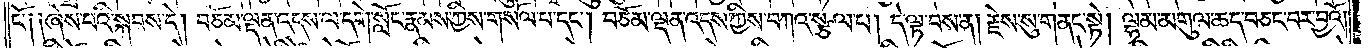ངོ༑  ༑ ཞེས་པའི་སྐབས་དེ། བཅོམ་ལྡན་འདས་ལ་དགེ་སློང་རྣམས་ཀྱིས་གསོལ་པ་དང༌། བཅོམ་ལྡན་འདས་ཀྱིས་བཀའ་སྩལ་པ། དེ་ལྟ་བས་ན། རྗེས་སུ་གནང་སྟེ། ལྷམ་མགུལ་ཆད་བཅང་བར་བྱའོ། །
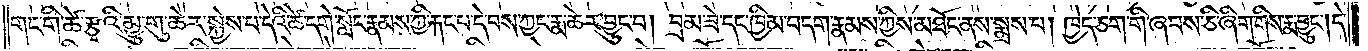གང་གི་ཚེ་རྩྭའི་མྱུ་གུ་ཆེར་སྐྱེས་པ་དེའི་ཚེ་དགེ་སློང་རྣམས་ཀྱི་རྐང་པ་དེ་བས་ཀྱང་རྨ་ཆེར་བྱུང་བ། བྲམ་ཟེ་དང་ཁྱིམ་བདག་རྣམས་ཀྱིས་མཐོང་ནས་སྨྲས་པ། ཁྱེད་ཅག་གི་ཞབས་ཅི་ཞིག་གིས་རྨ་བྱུང༌། དེ་
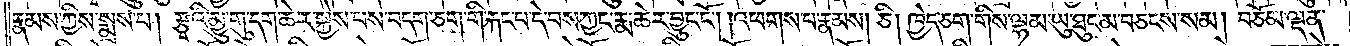རྣམས་ཀྱིས་སྨྲས་པ། རྩྭའི་མྱུ་གུ་དག་ཆེར་སྐྱེས་པས་བདག་ཅག་གི་རྐང་པ་དེ་བས་ཀྱང་རྨ་ཆེར་བྱུང་ངོ༌། །འཕགས་པ་རྣམས། ཅི། ཁྱེད་ཅག་གིས་ལྷམ་ཡུ་ཐུང་མ་བཅངས་སམ། བཅོམ་ལྡན་
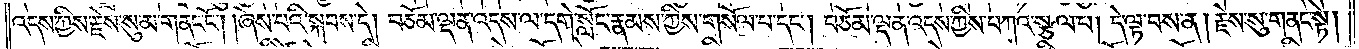འདས་ཀྱིས་རྗེས་སུ་མ་གནང་ངོ༌། །ཞེས་པའི་སྐབས་དེ། བཅོམ་ལྡན་འདས་ལ་དགེ་སློང་རྣམས་ཀྱིས་གསོལ་པ་དང༌། བཅོམ་ལྡན་འདས་ཀྱིས་བཀའ་སྩལ་པ། དེ་ལྟ་བས་ན། རྗེས་སུ་གནང་སྟེ།
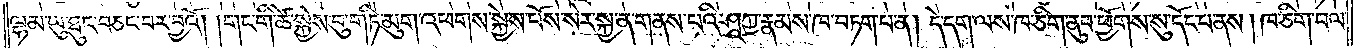ལྷམ་ཡུ་ཐུང་བཅང་བར་བྱའོ། །གང་གི་ཚེ་སྐྱེས་བུ་གཏི་མུག་འཕགས་སྐྱེས་པོས་སེར་སྐྱ་ན་གནས་པའི་ཤཱཀྱ་རྣམས་ཁ་བཏག་པ་ན། དེ་དག་ལས་ཁ་ཅིག་ནུབ་ཕྱོགས་སུ་དོང་པ་ནས། ཁ་ཅིག་བལ་
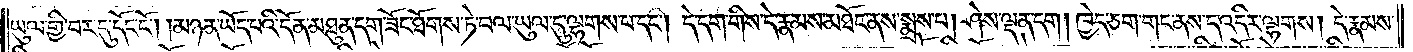ཡུལ་གྱི་བར་དུ་དོང་ངོ༌། །མཉན་ཡོད་པའི་དོན་མཐུན་དག་ཟོང་ཐོགས་ཏེ་བལ་ཡུལ་དུ་ལྷགས་པ་དང༌། དེ་དག་གིས་དེ་རྣམས་མཐོང་ནས་སྨྲས་པ། ཤེས་ལྡན་དག །ཁྱེད་ཅག་གང་ནས་ད་འདིར་ལྷགས། དེ་རྣམས་
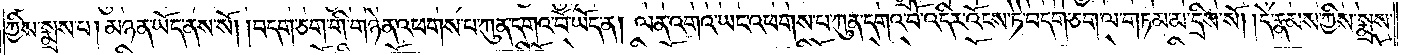ཀྱིས་སྨྲས་པ། མཉན་ཡོད་ནས་སོ། །བདག་ཅག་གི་གཉེན་འཕགས་པ་ཀུན་དགའ་བོ་ཡོད་ན། ལན་འགའ་ཡང་འཕགས་པ་ཀུན་དགའ་བོ་འདིར་འོངས་ཏེ་བདག་ཅག་ལ་གཏམ་མ་དྲིས་སོ། །དེ་རྣམས་ཀྱིས་སྨྲས་
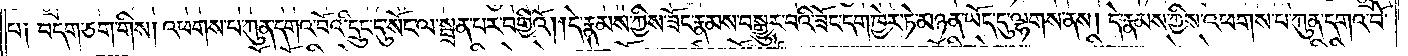པ༑ བདག་ཅག་གིས། འཕགས་པ་ཀུན་དགའ་བོའི་དྲུང་དུ་སོང་ལ་སྦྲན་པར་བགྱིའོ། །དེ་རྣམས་ཀྱིས་ཟོང་རྣམས་བསྒྱུར་བའི་ཟོང་དག་ཁྱེར་ཏེ་མཉན་ཡོད་དུ་ལྷགས་ནས། དེ་རྣམས་ཀྱིས་འཕགས་པ་ཀུན་དགའ་བོ་
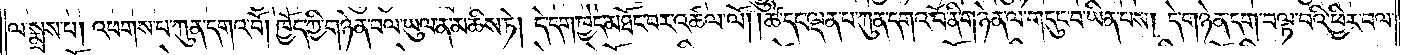ལ་སྨྲས་པ། འཕགས་པ་ཀུན་དགའ་བོ། ཁྱོད་ཀྱི་གཉེན་བལ་ཡུལ་ན་མཆིས་ཏེ། དེ་དག་ཁྱེད་མཐོང་བར་འཚལ་ལོ། །ཚེ་དང་ལྡན་པ་ཀུན་དགའ་བོ་ནི་གཉེན་ལ་གདུང་བ་ཡིན་པས། དེ་གཉེན་དག་བལྟ་བའི་ཕྱིར་བལ་
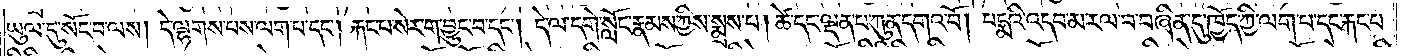ཡུལ་དུ་སོང་བ་ལས། དེ་ལྷགས་པས་ལག་པ་དང༌། རྐང་པ་སེར་ག་བྱུང་བ་དང༌། དེ་ལ་དགེ་སློང་རྣམས་ཀྱིས་སྨྲས་པ། ཚེ་དང་ལྡན་པ་ཀུན་དགའ་བོ། པདྨའི་འདབ་མ་རལ་བ་བཞིན་དུ་ཁྱོད་ཀྱི་ལག་པ་དང་རྐང་པ་
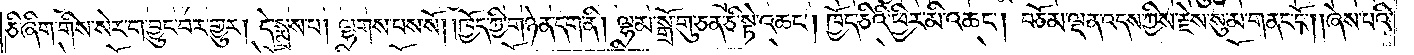ཅི་ཞིག་གིས་སེར་ག་བྱུང་བར་གྱུར། དེ་སྨྲས་པ། ལྷགས་པས་སོ། །ཁྱོད་ཀྱི་གཉེན་དག་ནི། ལྷམ་སྒྲོ་གུ་ཅན་ཅི་སྟེ་འཆང༌། ཁྱོད་ཅིའི་ཕྱིར་མི་འཆང༌། བཅོམ་ལྡན་འདས་ཀྱིས་རྗེས་སུ་མ་གནང་ངོ༌། །ཞེས་པའི་
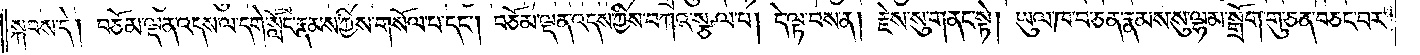སྐབས་དེ། བཅོམ་ལྡན་འདས་ལ་དགེ་སློང་རྣམས་ཀྱིས་གསོལ་པ་དང༌། བཅོམ་ལྡན་འདས་ཀྱིས་བཀའ་སྩལ་པ། དེ་ལྟ་བས་ན། རྗེས་སུ་གནང་སྟེ། ཡུལ་ཁ་བ་ཅན་རྣམས་སུ་ལྷམ་སྒྲོག་གུ་ཅན་བཅང་བར་
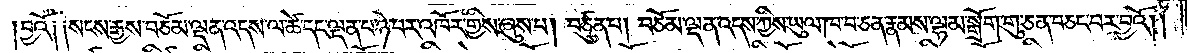བྱའོ༑ ༑སངས་རྒྱས་བཅོམ་ལྡན་འདས་ལ་ཚེ་དང་ལྡན་པ་ཉེ་བར་འཁོར་གྱིས་ཞུས་པ། བཙུན་པ། བཅོམ་ལྡན་འདས་ཀྱིས་ཡུལ་ཁ་བ་ཅན་རྣམས་ལྷམ་སྒྲོག་གུ་ཅན་བཅང་བར་བྱའོ། །
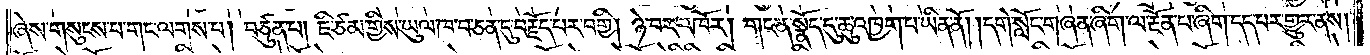ཞེས་གསུངས་པ་གང་ལགས་པ། བཙུན་པ། ཇི་ཙམ་གྱིས་ཡུལ་ཁ་བ་ཅན་དུ་བརྗོད་པར་བགྱི། ཉེ་བར་འཁོར། གང་ན་སྣོད་དུ་ཆུ་འཁྱག་པ་ཡིན་ནོ། །དགེ་སློང་གཞན་ཞིག་ལ་རྔོན་པ་ཞིག་དད་པར་གྱུར་ནས།
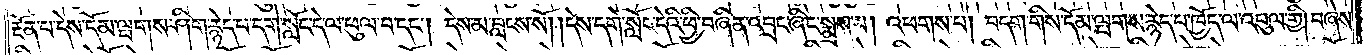རྔོན་པ་དེས་དོམ་ལྤགས་ཤིག་རྙེད་པ་དགེ་སློང་དེ་ལ་ཕུལ་བ་དང༌། དེས་མ་བླངས་སོ། །དེས་དགེ་སློང་དེའི་ཕྱི་བཞིན་འབྲང་ཞིང་སྨྲས་པ། འཕགས་པ། བདག་གིས་དོམ་ལྤགས་རྙེད་པ་ཁྱོད་ལ་འབུལ་གྱི། བཞེས་
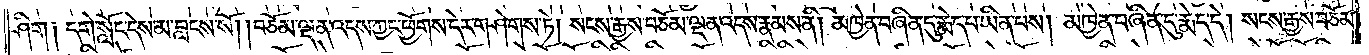ཤིག །དགེ་སློང་དེས་མ་བླངས་སོ། །བཅོམ་ལྡན་འདས་ཀྱང་ཕྱོགས་དེར་གཤེགས་ཏེ། སངས་རྒྱས་བཅོམ་ལྡན་འདས་རྣམས་ནི། མཁྱེན་བཞིན་དུ་རྨེད་པ་ཡིན་པས། མཁྱེན་བཞིན་དུ་རྨེད་དེ། སངས་རྒྱས་བཅོམ་
